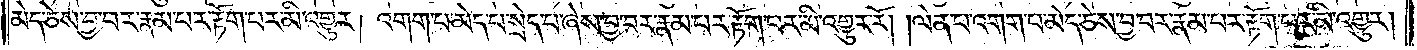མེད་ཅེས་བྱ་བར་རྣམ་པར་རྟོག་པར་མི་འགྱུར། འགག་པ་མེད་པ་སྲེད་པ་ཞེས་བྱ་བར་རྣམ་པར་རྟོག་པར་མི་འགྱུར་རོ། །ལེན་པ་འགག་པ་མེད་ཅེས་བྱ་བར་རྣམ་པར་རྟོག་པར་མི་འགྱུར།
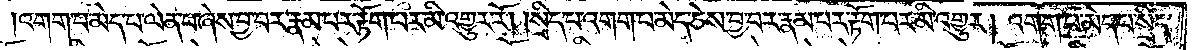འགག་པ་མེད་པ་ལེན་པ་ཞེས་བྱ་བར་རྣམ་པར་རྟོག་པར་མི་འགྱུར་རོ། །སྲིད་པ་འགག་པ་མེད་ཅེས་བྱ་བར་རྣམ་པར་རྟོག་པར་མི་འགྱུར། འགག་པ་མེད་པ་སྲིད་
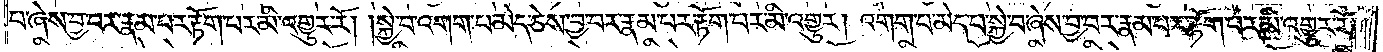པ་ཞེས་བྱ་བར་རྣམ་པར་རྟོག་པར་མི་འགྱུར་རོ། །སྐྱེ་བ་འགག་པ་མེད་ཅེས་བྱ་བར་རྣམ་པར་རྟོག་པར་མི་འགྱུར། འགག་པ་མེད་པ་སྐྱེ་བ་ཞེས་བྱ་བར་རྣམ་པར་རྟོག་པར་མི་འགྱུར་རོ། །
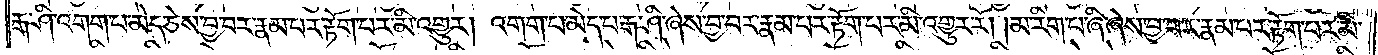རྒ་ཤི་འགག་པ་མེད་ཅེས་བྱ་བར་རྣམ་པར་རྟོག་པར་མི་འགྱུར། འགག་པ་མེད་པ་རྒ་ཤི་ཞེས་བྱ་བར་རྣམ་པར་རྟོག་པར་མི་འགྱུར་རོ། །མ་རིག་པ་ཞི་ཞེས་བྱ་བར་རྣམ་པར་རྟོག་པར་མི་
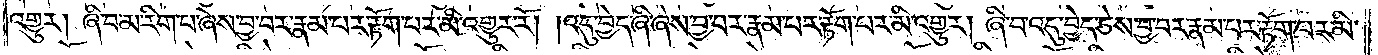འགྱུར། ཞི་བ་མ་རིག་པ་ཞེས་བྱ་བར་རྣམ་པར་རྟོག་པར་མི་འགྱུར་རོ། །འདུ་བྱེད་ཞི་ཞེས་བྱ་བར་རྣམ་པར་རྟོག་པར་མི་འགྱུར། ཞི་བ་འདུ་བྱེད་ཅེས་བྱ་བར་རྣམ་པར་རྟོག་པར་མི་
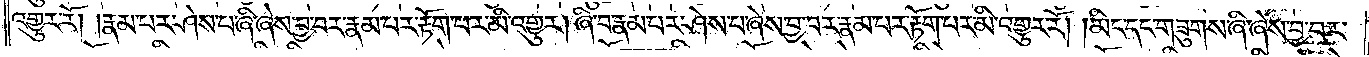འགྱུར་རོ། །རྣམ་པར་ཤེས་པ་ཞི་ཞེས་བྱ་བར་རྣམ་པར་རྟོག་པར་མི་འགྱུར། ཞི་བ་རྣམ་པར་ཤེས་པ་ཞེས་བྱ་བར་རྣམ་པར་རྟོག་པར་མི་འགྱུར་རོ། །མིང་དང་གཟུགས་ཞི་ཞེས་བྱ་བར་
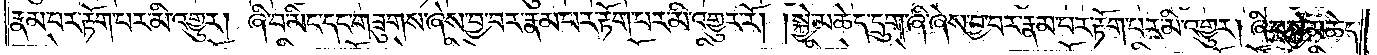རྣམ་པར་རྟོག་པར་མི་འགྱུར། ཞི་བ་མིང་དང་གཟུགས་ཞེས་བྱ་བར་རྣམ་པར་རྟོག་པར་མི་འགྱུར་རོ། །སྐྱེ་མཆེད་དྲུག་ཞི་ཞེས་བྱ་བར་རྣམ་པར་རྟོག་པར་མི་འགྱུར། ཞི་བ་སྐྱེ་མཆེད་
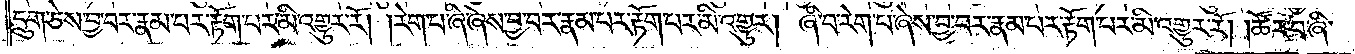དྲུག་ཅེས་བྱ་བར་རྣམ་པར་རྟོག་པར་མི་འགྱུར་རོ། །རེག་པ་ཞི་ཞེས་བྱ་བར་རྣམ་པར་རྟོག་པར་མི་འགྱུར། ཞི་བ་རེག་པ་ཞེས་བྱ་བར་རྣམ་པར་རྟོག་པར་མི་འགྱུར་རོ། །ཚོར་བ་ཞི་
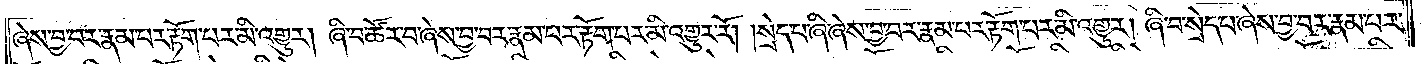ཞེས་བྱ་བར་རྣམ་པར་རྟོག་པར་མི་འགྱུར། ཞི་བ་ཚོར་བ་ཞེས་བྱ་བར་རྣམ་པར་རྟོག་པར་མི་འགྱུར་རོ། །སྲེད་པ་ཞི་ཞེས་བྱ་བར་རྣམ་པར་རྟོག་པར་མི་འགྱུར། ཞི་བ་སྲེད་པ་ཞེས་བྱ་བར་རྣམ་པར་
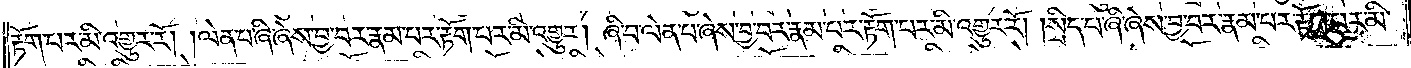རྟོག་པར་མི་འགྱུར་རོ། །ལེན་པ་ཞི་ཞེས་བྱ་བར་རྣམ་པར་རྟོག་པར་མི་འགྱུར། ཞི་བ་ལེན་པ་ཞེས་བྱ་བར་རྣམ་པར་རྟོག་པར་མི་འགྱུར་རོ། །སྲིད་པ་ཞི་ཞེས་བྱ་བར་རྣམ་པར་རྟོག་པར་མི་
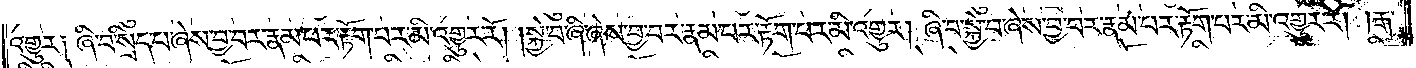འགྱུར། ཞི་བ་སྲིད་པ་ཞེས་བྱ་བར་རྣམ་པར་རྟོག་པར་མི་འགྱུར་རོ། །སྐྱེ་བ་ཞི་ཞེས་བྱ་བར་རྣམ་པར་རྟོག་པར་མི་འགྱུར། ཞི་བ་སྐྱེ་བ་ཞེས་བྱ་བར་རྣམ་པར་རྟོག་པར་མི་འགྱུར་རོ། །རྒ་
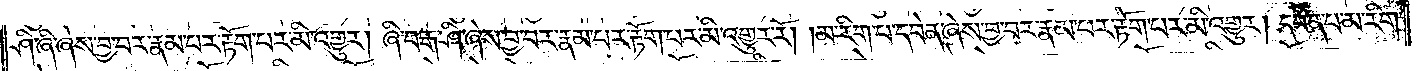ཤི་ཞི་ཞེས་བྱ་བར་རྣམ་པར་རྟོག་པར་མི་འགྱུར། ཞི་བ་རྒ་ཤི་ཞེས་བྱ་པར་རྣམ་པར་རྟོག་པར་མི་འགྱུར་རོ། །མ་རིག་པ་དབེན་ཞེས་བྱ་བར་རྣམ་པར་རྟོག་པར་མི་འགྱུར། དབེན་པ་མ་རིག་
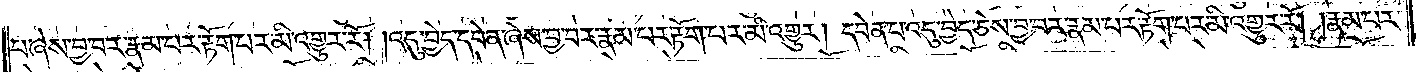པ་ཞེས་བྱ་བར་རྣམ་པར་རྟོག་པར་མི་འགྱུར་རོ། །འདུ་བྱེད་དབེན་ཞེས་བྱ་བར་རྣམ་པར་རྟོག་པར་མི་འགྱུར། དབེན་པ་འདུ་བྱེད་ཅེས་བྱ་བར་རྣམ་པར་རྟོག་པར་མི་འགྱུར་རོ། །རྣམ་པར་
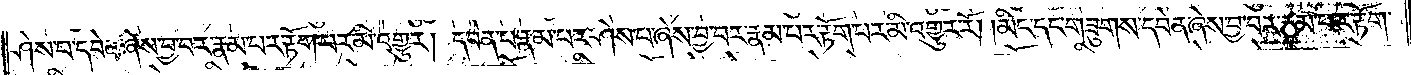ཤེས་པ་དབེན་ཞེས་བྱ་བར་རྣམ་པར་རྟོག་པར་མི་འགྱུར། དབེན་པ་རྣམ་པར་ཤེས་པ་ཞེས་བྱ་བར་རྣམ་པར་རྟོག་པར་མི་འགྱུར་རོ། །མིང་དང་གཟུགས་དབེན་ཞེས་བྱ་བར་རྣམ་པར་རྟོག་
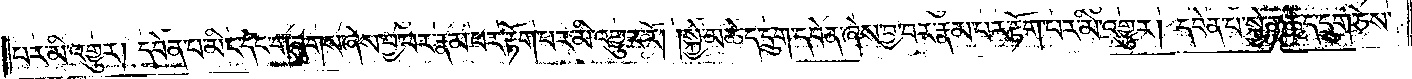པར་མི་འགྱུར། དབེན་པ་མིང་དང་གཟུགས་ཞེས་བྱ་བར་རྣམ་པར་རྟོག་པར་མི་འགྱུར་རོ། །སྐྱེ་མཆེད་དྲུག་དབེན་ཞེས་བྱ་བར་རྣམ་པར་རྟོག་པར་མི་འགྱུར། དབེན་པ་སྐྱེ་མཆེད་དྲུག་ཅེས་
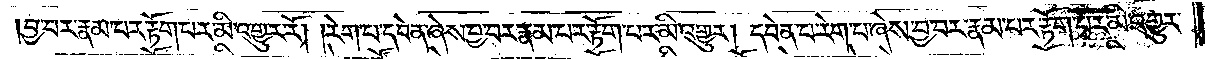བྱ་བར་རྣམ་པར་རྟོག་པར་མི་འགྱུར་རོ། །རེག་པ་དབེན་ཞེས་བྱ་བར་རྣམ་པར་རྟོག་པར་མི་འགྱུར། དབེན་པ་རེག་པ་ཞེས་བྱ་བར་རྣམ་པར་རྟོག་པར་མི་འགྱུར་
